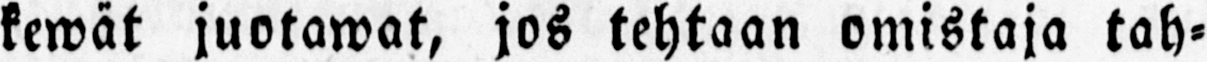kewät juotawat, jos tehtaan omistaja tah-
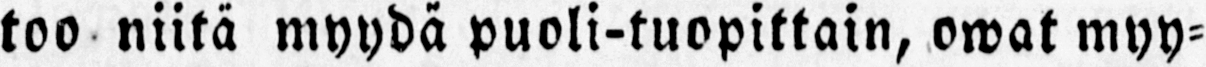too niitä myydä puoli-tuopittain, owat myy-
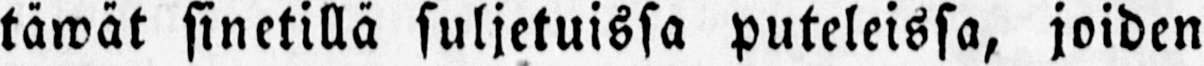täwät sinetillä suljetuissa puteleissa, joiden
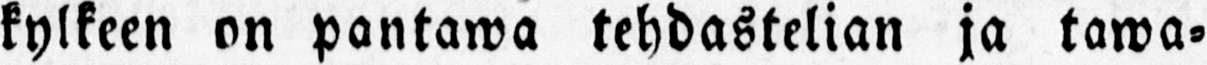kylkeen on pantawa tehdastelian ja tawa-
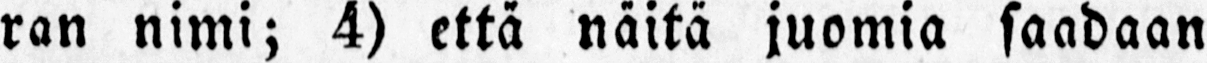ran nimi; 4) että näitä juomia saadaan
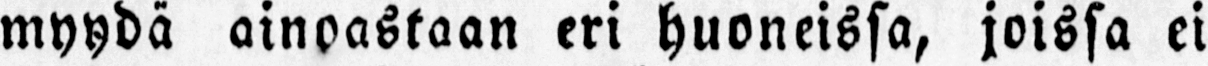myydä ainoastaan eri huoneissa, joissa ei
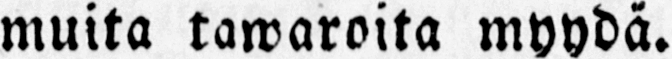muita tawaroita myydä.
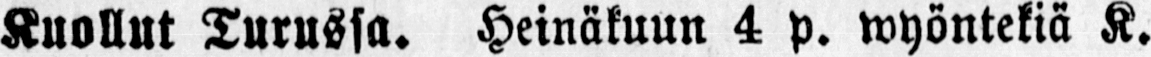Kuollut Turussa. Heinäkuun 4 p. wyöntekiä K.
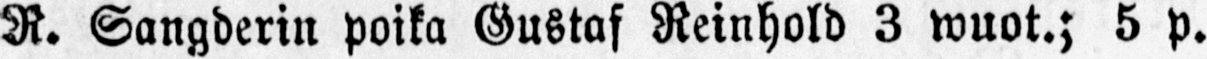R. Sangderin poika Gustaf Reinhold 3 wuot.; 5 p.
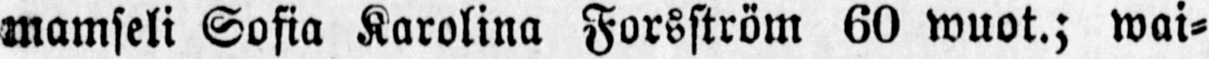mamseli Sofia Karolina Forsström 60 wuot.; wai-
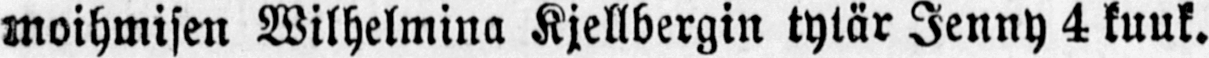moihmisen Wilhelmina Kjellbergin tylär Jenny 4 kuuk.
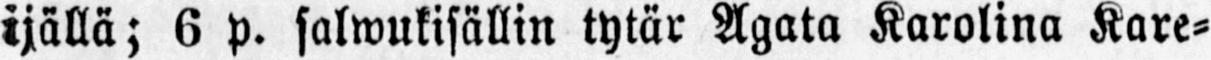ijällä; 6 p. salwukisällin tytär Agata Karolina Kare-
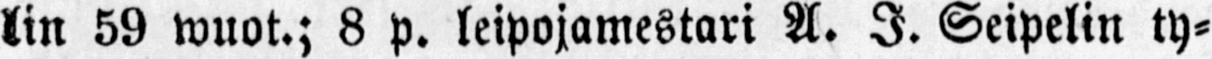lin 59 wuot.; 8 p. leipojamestari A. I. Seipelin ty-
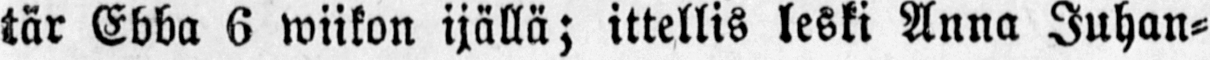tär Ebba 6 wiikon ijällä; ittellis leski Anna Juhan-
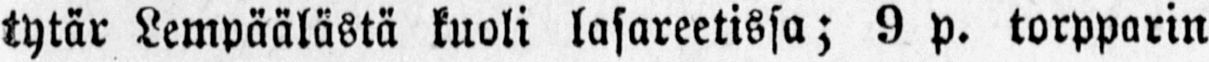tytär Lempäälästä kuoli lasareetissa; 9 p. torpparin
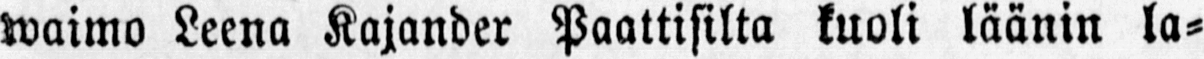waimo Leena Kajander Paattisilta kuoli läänin la-
